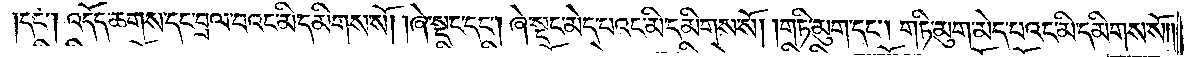དང༌། འདོད་ཆགས་དང་བྲལ་བའང་མི་དམིགས་སོ། །ཞེ་སྡང་དང༌། ཞེ་སྡང་མེད་པའང་མི་དམིགས་སོ། །གཏི་མུག་དང༌། གཏི་མུག་མེད་པའང་མི་དམིགས་སོ། །
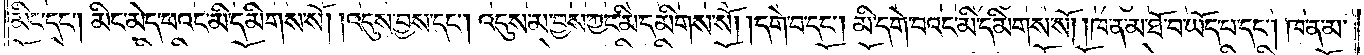མིང་དང༌། མིང་མེད་པའང་མི་དམིགས་སོ། །འདུས་བྱས་དང༌། འདུས་མ་བྱས་ཀྱང་མི་དམིགས་སོ། །དགེ་བ་དང༌། མི་དགེ་བའང་མི་དམིགས་སོ། །ཁ་ན་མ་ཐོ་བ་ཡོད་པ་དང༌། ཁ་ན་མ་
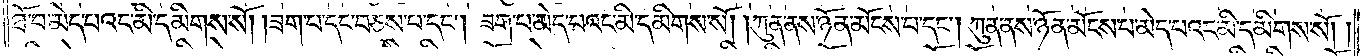ཐོ་བ་མེད་པའང་མི་དམིགས་སོ། །ཟག་པ་དང་བཅས་པ་དང༌། ཟག་པ་མེད་པའང་མི་དམིགས་སོ། །ཀུན་ནས་ཉོན་མོངས་པ་དང༌། ཀུན་ནས་ཉོན་མོངས་པ་མེད་པའང་མི་དམིགས་སོ། །
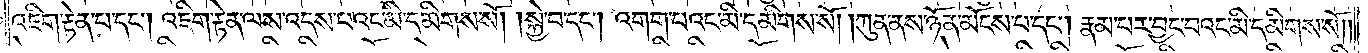འཇིག་རྟེན་པ་དང༌། འཇིག་རྟེན་ལས་འདས་པའང་མི་དམིགས་སོ། །སྐྱེ་བ་དང༌། འགག་པའང་མི་དམིགས་སོ། །ཀུན་ནས་ཉོན་མོངས་པ་དང༌། རྣམ་པར་བྱང་བའང་མི་དམིགས་སོ། །
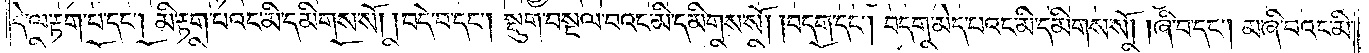དེ་ལ་རྟག་པ་དང༌། མི་རྟག་པའང་མི་དམིགས་སོ། །བདེ་བ་དང༌། སྡུག་བསྔལ་བའང་མི་དམིགས་སོ། །བདག་དང་བདག་མེད་པའང་མི་དམིགས་སོ། །ཞི་བ་དང༌། མ་ཞི་བའང་མི་
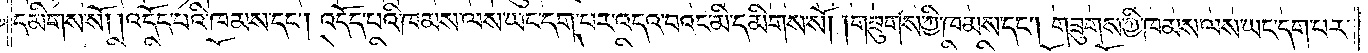དམིགས་སོ། །འདོད་པའི་ཁམས་དང༌། འདོད་པའི་ཁམས་ལས་ཡང་དག་པར་འདའ་བའང་མི་དམིགས་སོ། །གཟུགས་ཀྱི་ཁམས་དང༌། གཟུགས་ཀྱི་ཁམས་ལས་ཡང་དག་པར་
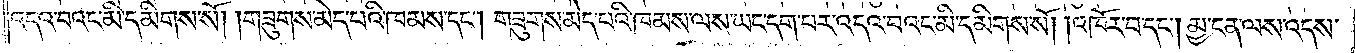འདའ་བའང་མི་དམིགས་སོ། །གཟུགས་མེད་པའི་ཁམས་དང༌། གཟུགས་མེད་པའི་ཁམས་ལས་ཡང་དག་པར་འདའ་བའང་མི་དམིགས་སོ། །འཁོར་བ་དང༌། མྱ་ངན་ལས་འདས་
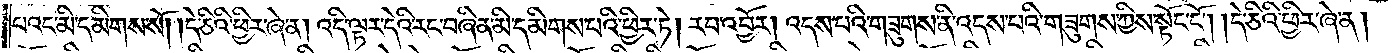པའང་མི་དམིགས་སོ། །དེ་ཅིའི་ཕྱིར་ཞེ་ན། འདི་ལྟར་དེའི་རང་བཞིན་མི་དམིགས་པའི་ཕྱིར་ཏེ། རབ་འབྱོར། འདས་པའི་གཟུགས་ནི་འདས་པའི་གཟུགས་ཀྱིས་སྟོང་ངོ༌། །དེ་ཅིའི་ཕྱིར་ཞེ་ན།
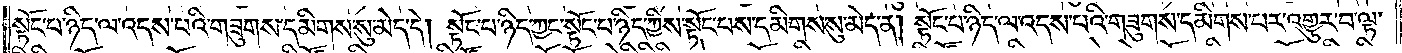སྟོང་པ་ཉིད་ལ་འདས་པའི་གཟུགས་དམིགས་སུ་མེད་དེ། སྟོང་པ་ཉིད་ཀྱང་སྟོང་པ་ཉིད་ཀྱིས་སྟོང་པས་དམིགས་སུ་མེད་ན། སྟོང་པ་ཉིད་ལ་འདས་པའི་གཟུགས་དམིགས་པར་འགྱུར་བ་ལྟ་
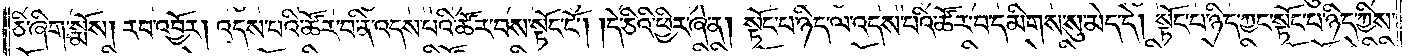ཅི་ཞིག་སྨོས། རབ་འབྱོར། འདས་པའི་ཚོར་བ་ནི་འདས་པའི་ཚོར་བས་སྟོང་ངོ༌། །དེ་ཅིའི་ཕྱིར་ཞེ་ན། སྟོང་པ་ཉིད་ལ་འདས་པའི་ཚོར་བ་དམིགས་སུ་མེད་དེ། སྟོང་པ་ཉིད་ཀྱང་སྟོང་པ་ཉིད་ཀྱིས་
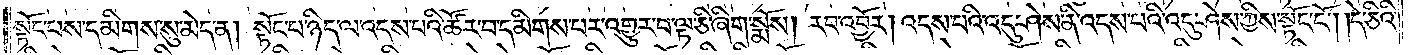སྟོང་པས་དམིགས་སུ་མེད་ན། སྟོང་པ་ཉིད་ལ་འདས་པའི་ཚོར་བ་དམིགས་པར་འགྱུར་བ་ལྟ་ཅི་ཞིག་སྨོས། རབ་འབྱོར། འདས་པའི་འདུ་ཤེས་ནི་འདས་པའི་འདུ་ཤེས་ཀྱིས་སྟོང་ངོ༌། །དེ་ཅིའི་
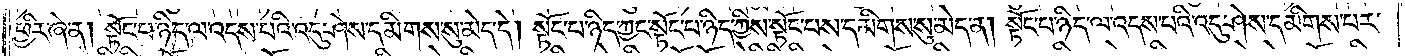ཕྱིར་ཞེ་ན། སྟོང་པ་ཉིད་ལ་འདས་པའི་འདུ་ཤེས་དམིགས་སུ་མེད་དེ། སྟོང་པ་ཉིད་ཀྱང་སྟོང་པ་ཉིད་ཀྱིས་སྟོང་པས་དམིགས་སུ་མེད་ན། སྟོང་པ་ཉིད་ལ་འདས་པའི་འདུ་ཤེས་དམིགས་པར་
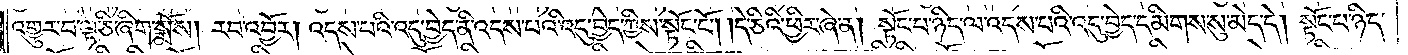འགྱུར་བ་ལྟ་ཅི་ཞིག་སྨོས། རབ་འབྱོར། འདས་པའི་འདུ་བྱེད་ནི་འདས་པའི་འདུ་བྱེད་ཀྱིས་སྟོང་ངོ༌། །དེ་ཅིའི་ཕྱིར་ཞེ་ན། སྟོང་པ་ཉིད་ལ་འདས་པའི་འདུ་བྱེད་དམིགས་སུ་མེད་དེ། སྟོང་པ་ཉིད་
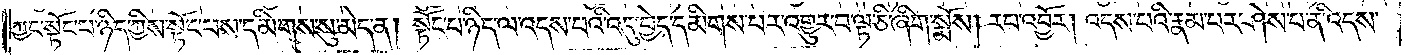ཀྱང་སྟོང་པ་ཉིད་ཀྱིས་སྟོང་པས་དམིགས་སུ་མེད་ན། སྟོང་པ་ཉིད་ལ་འདས་པའི་འདུ་བྱེད་དམིགས་པར་འགྱུར་བ་ལ་ཅི་ཞིག་སྨོས། རབ་འབྱོར། འདས་པའི་རྣམ་པར་ཤེས་པ་ནི་འདས་
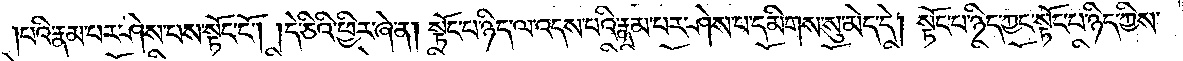པའི་རྣམ་པར་ཤེས་པས་སྟོང་ངོ༌། །དེ་ཅིའི་ཕྱིར་ཞེ་ན། སྟོང་པ་ཉིད་ལ་འདས་པའི་རྣམ་པར་ཤེས་པ་དམིགས་སུ་མེད་དེ། སྟོང་པ་ཉིད་ཀྱང་སྟོང་པ་ཉིད་ཀྱིས་
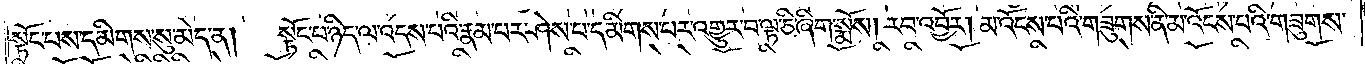སྟོང་པས་དམིགས་སུ་མེད་ན། སྟོང་པ་ཉིད་ལ་འདས་པའི་རྣམ་པར་ཤེས་པ་དམིགས་པར་འགྱུར་བ་ལ་ཅི་ཞིག་སྨོས། རབ་འབྱོར། མ་འོངས་པའི་གཟུགས་ནི་མ་འོངས་པའི་གཟུགས་
